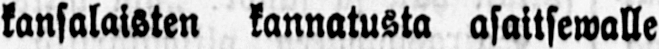kansalaisten kannatusta asaitsewalle
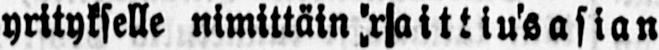yritykselle nimittäin raittiusasian
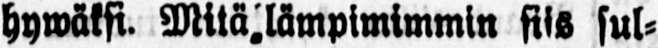hywäksi. Mitä lämpimimmin siis sul-
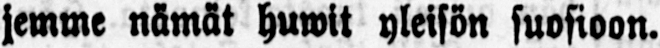jemme nämät huwit yleisön suosioon.
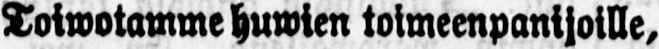Toiwotamme huwien toimeenpanijoille,
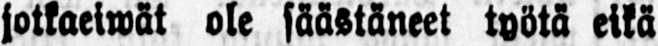jotkaeiwät ole säästäneet työtä eikä
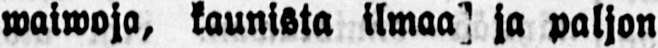waiwoja, kaunista ilmaa ja paljon
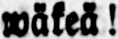wäkeä!
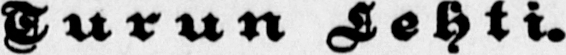Turun Lehti.
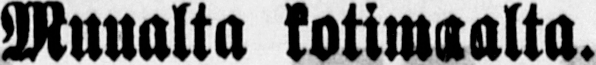Muualta kotimaalta.
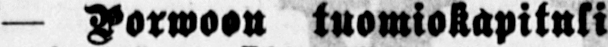— Porwoon tuomiokapituli
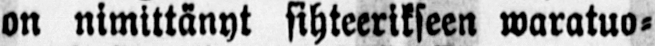on nimittänyt sihteerikseen waratuo-
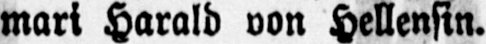mari Harald von Hellensin.
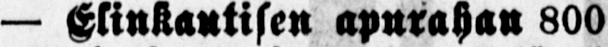— Elinkantisen apurahan 800
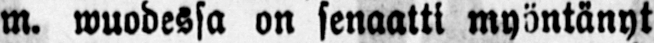m. wuodessa on senaatti myöntänyt
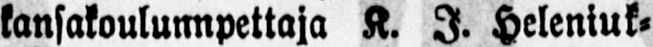kansakoulunnpettaja K. I. Heleniuk-
